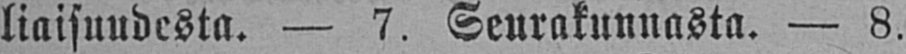liaisuudesta. — 7. Seurakunnasta. — 8.
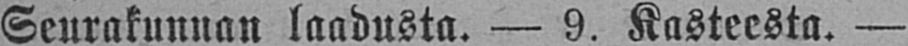Seurakunnan laadusta. — 9. Kasteesta. —
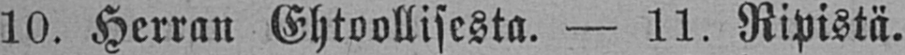10. Herran Ehtoollisesta. — 11. Ripistä.
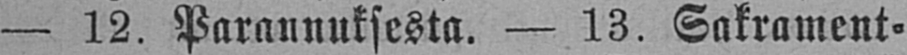— 12. Parannuksesta. — 13. Sakrament-
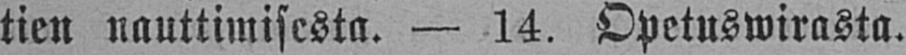tien nauttimisesta. — 14. Opetuswirasta.
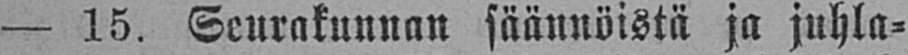— 15. Seurakunnan säännöistä ja juhla-
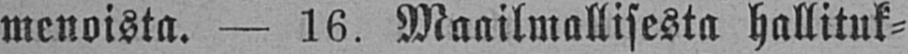menoista. — 16. Maailmallisesta hallituk-
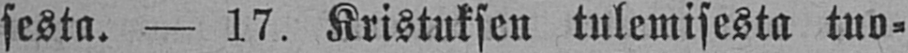sesta. — 17. Kristuksen tulemisesta tuo-
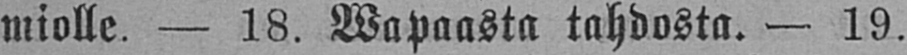miolle. — 18. Wapaasta tahdosta. — 19.
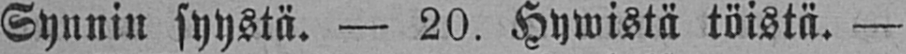Synnin syystä. — 20. Hywistä töistä. —
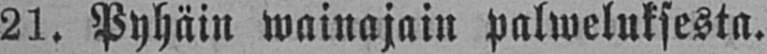21. Pyhäin wainajain palweluksesta.
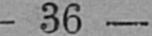— 36 —
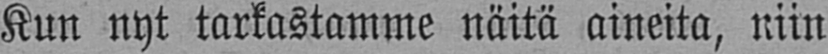Kun nyt tarkastamme näitä aineita, niin
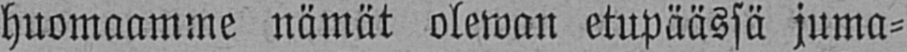huomaamme nämät olewan etupäässä juma-
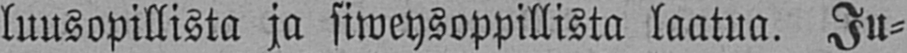luusopillista ja siweysoppillista laatua. Ju-
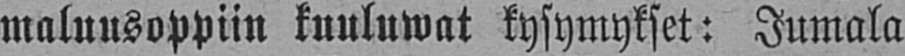maluusoppiin kuuluwat kysymykset: Jumala
